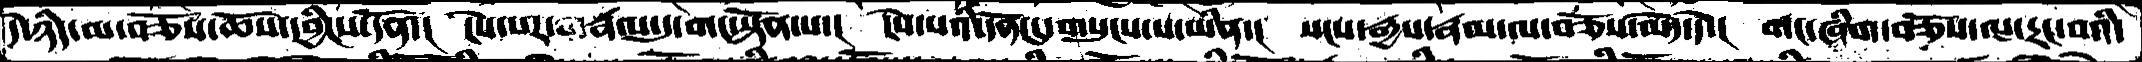དེ་ཉིད་མ་བཅོས་ཆོས་དབྱིངས་དོན་། ངེས་པར་རྣལ་དུ་གང་སྟོན་པ་། ངེས་པའི་དོན་དུ་གསུངས་པ་ཡིན་། སངས་རྒྱས་རྣམ་ལ་བཅོས་མེད་དེ་། གང་ཞིག་བཅོས་ལ་དྲང་བའི་
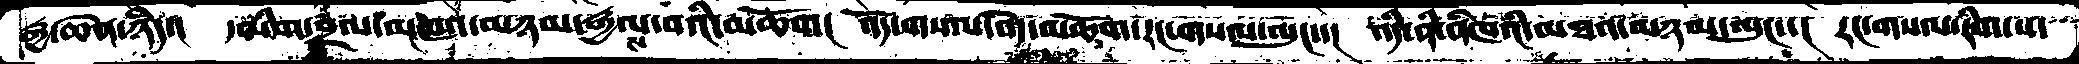རྒྱ་ཆེན་ཉིད་། དམིགས་བྲལ་མཁའ་མཉམ་རྒྱལ་བའི་མཆོག། འོད་གསལ་བདེ་མཆོག་རང་གསལ་ལུང་་། འདི་ནི་ནཾམཁའི་མཐའ་མཉམ་ལུང་་། རང་གསལ་རིག་པ་
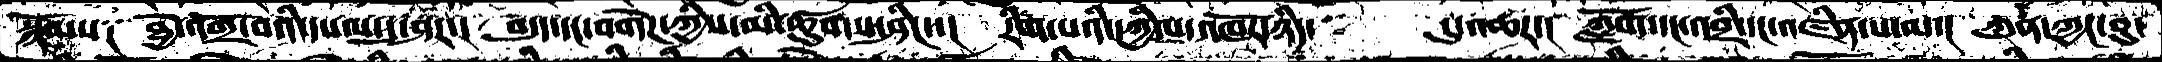སྙོམས༑ ཐྱེ་འགྲོ་བའི་དཔལ་དུ་ཤར་། བདུད་དང་བགེཌ་ཀྱིས་མི་ཚུགས་ཤིང་་། རིག་པའི་དཀྱིལ་འཁོར་ཉིད་    དུ་འཆར་། ཀློག་དང་འབྲིང་དང་འཛིན་པ་ལ་། ཀུན་ཀྱང་བུ་
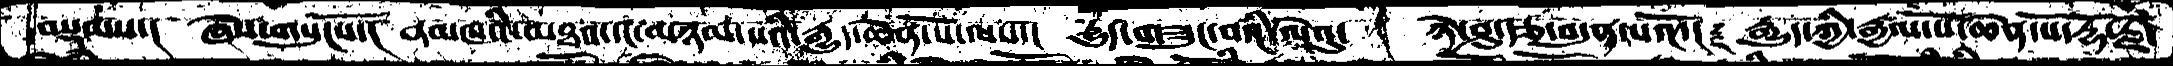བསྡམས་། ཞེས་གསུངསོ་། ནམཁའི་མཐའ་དང་མཉམ་པའི་རྒྱུད་ཆེན་པོ་ལས་། དྱུད་གཟུང་བའི་ལེའུ་ ཉེ་ཤུ་རྩ་བདུན་པའོ་། རྒྱུད་ཀྱི་རྒྱལ་པོ་ཆེན་པོ་རྡོ་རྗེ་
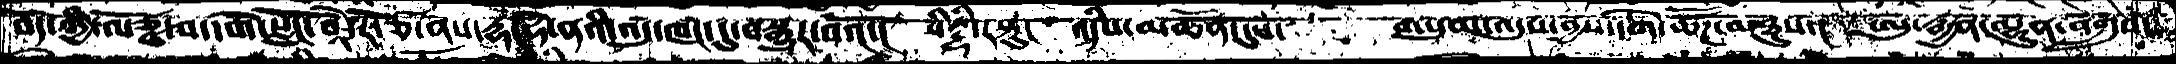བོད་ཀྱི་ལོཙྪ་བ་དགེ་སློང་བཱཻ་རོ་ཙ་ནས་དྷ་ཧེ་ནའི་འདུ་ཁང་དུ་བསྒྱུར་བའོ་། སིཏྡྷི་རསྟུ། འདིས་མཚོན་དུས་ གསུམ་འདུས་བྱས་དགེ་ཚོཌ་མཐུས་། ཨུ་རྒྱན་ལྷུན་འགྲུབ་
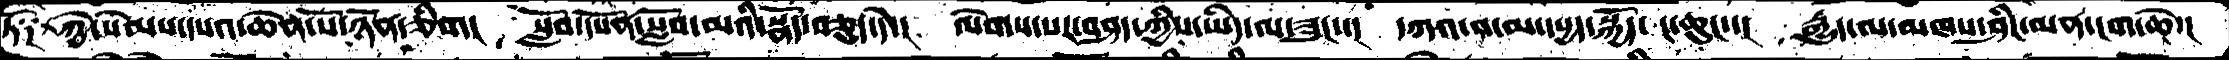ཏེ༑  ཀྱེ་སེམས་དཔའ་ཆེན་པོ་ཉོན་ཅིག་།  སློབ་དཔོན་སློབ་མའི་སྣོད་བཅུད་དེ་།  ལེགས་པར་བཤད་ཀྱིས་ཡིད་ལ་ཟུངས།  དཀའ་བ་མ་དཔྱད་སྐྱོད་ང་ཆུང་་།  རྒྱུད་ལ་མཁས་ཤིང་མན་ངག་ཆེ་།
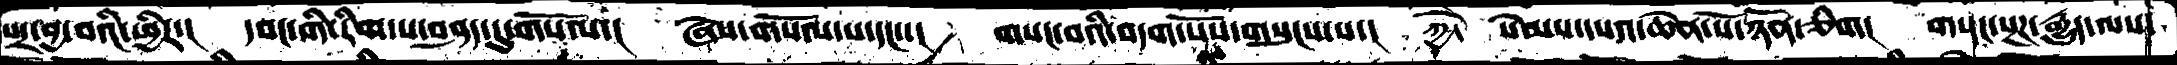པར་བྱ་བའི་ཕྱིར་།  དབང་གི་རིག་པ་བཤད་དུ་གསོལ་།  ཞེས་གསོལ་པ་དང་།  གསང་བའི་བདག་པོས་གསུངས་པ་།  ཀྱེ་  སེམས་དཔའ་ཆེན་པོ་ཉོན་ཅིག། གསང་སྔཌ་རྒྱུད་ལས་
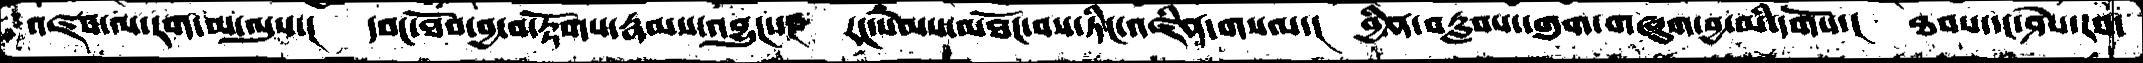འཛབ་ལ་རག་མ་ལུས་།  དབང་ཐོབ་བྱ་བ་རྟོགས་རྣམས་འབྱུང་་། རང་སེམས་མཐོང་བས་ཏིང་འཛིན་གསལ་།  བྱིན་བརླབས་དགུག་གཞུག་བྱ་མི་དགོས་།  ཐབས་དང་ཤེས་རབ་
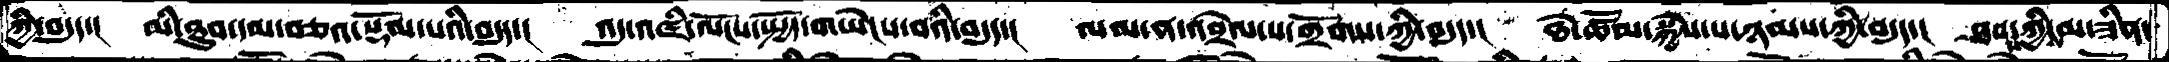ཀྱི་བདུད་། མི་ཐུབ་དམ་བཅའ་སྡོམ་པའི་བདུད་། འདུ་འཛི་ལོངས་སྤྱོད་གཡེངས་བའི་བདུད་། ལམ་ན་འབྲེལ་པ་གྲོགས་ཀྱི་བདུད་། ཐེ་ཚོམ་སྐྱེས་པ་ཉམས་ཀྱི་བདུད་། ཐབས་ཀྱིས་མ་ཟིན་
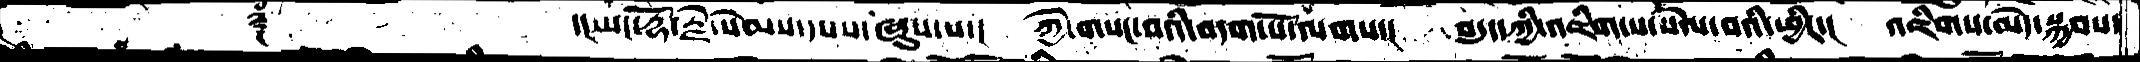༈  ་།ཡང་རྡོ་རྗེ་སེམས་དཔས་ཞུས་པ་།  ཀྱེ་གསང་བའིི་བདག་པོ་ལགས་། བདུད་ཀྱི་འཇིག་པ་སེལ་བའི་ཕྱིར་། འཇིགས་མེད་སྐྱབས་
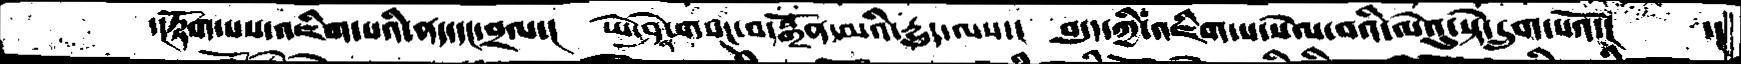་།རྟོག་པས་འཇིག་པའི་ནད་དང་བྲལ་།  ཡེ་ཤེས་གསང་བ་སྒྲོན་མའི་དྱུད་ལས་། བདུད་ཀྱི་འཇིག་པ་སེལ་བའི་ལེའུ་སྟེ་དྲུག་པའོ་།  ་།
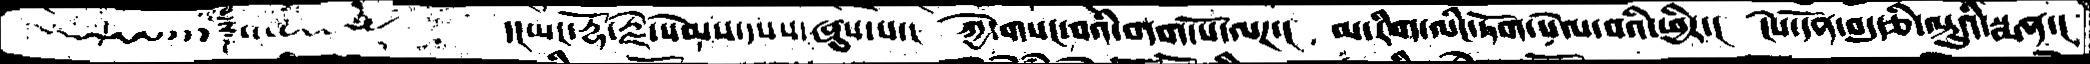༈    ་།ཡང་རྡོ་རྗེ་སེམས་དཔས་ཞུས་པ་།  ཀྱེ་གསང་བའི་བདག་པོ་ལཌ་། མ་རིག་ལིང་ཏོག་སེལ་བའི་ཕྱིར་། ངེས་དོན་བདུརྩི་ལྟུའི་སྨན་།
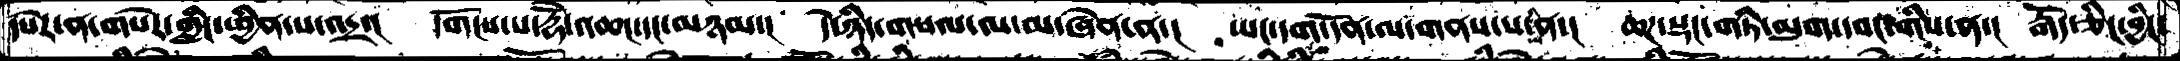དཔེར་ན་གསེར་གླིང་ཕྱིན་པ་འདྲ་། དགོངས་པ་རྡོེ་འཆང་དང་མཉམ་། དེ་ཉིད་གསལ་ལ་མ་ཞེན་ན་། ཡང་དག་དོན་ལ་གནས་པས་ན་། ཆཌ་སྡང་གཏི་མུག་དབང་གིས་ན་། རྒོད་ཅིང་བྱིང་
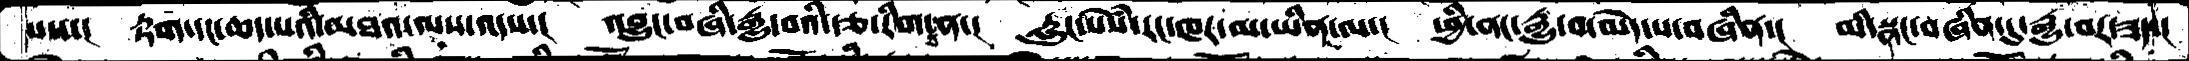པས་། རྟག་དང་ཆད་པའི་མཐའ་ལས་འདས་། འབྱུང་བཞི་རྒྱུ་བའི་རྩ་རིག་ཅན་། རླུང་སེཾས་རང་ཁར་མ་ཡིན་ལ་། ཕྱི་ནང་རྒྱུ་བ་མེད་པ་བཞིན་། མི་སྣང་བཞིན་དུ་རྒྱུ་བར་ཟད་།
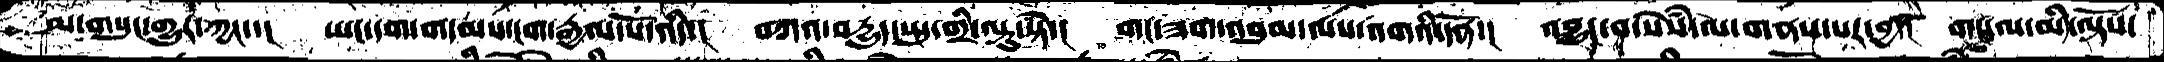མ་གསུང་གྱུར་ཀྱང་་། ཡང་དག་གདམས་ངག་རྒྱལ་པོ་འདི་། བཀའ་བདྱུད་སྤུ་གྲི་ལྟུ་སྟེ་། གང་ཟག་འབུམ་ལས་འགའི་དོན་། འབྱུང་བ་སེཾས་ལ་གནས་པར་བྱ་། གསལ་མི་ལྟོས་
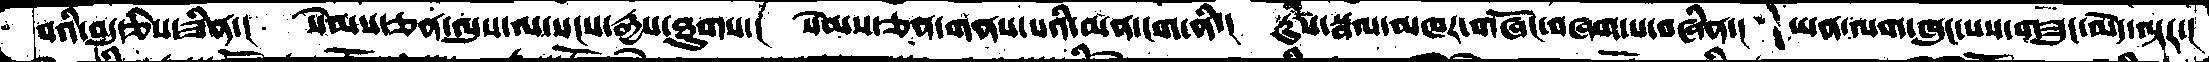བའི་བདུརྩིས་ཟིན་། སེམས་ཅན་ལུས་ལ་སངས་རྒྱས་ཐུགས་། སེམས་ཅན་གནས་པའི་མན་ངག་ནི་། རུས་སྦལ་མཁར་གཞོང་བཞག་པ་བཞིན་། ཡན་ལག་ཁུང་པས་གཟུང་མེད་ལྟར་།
